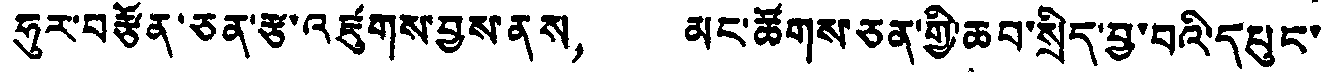ཧུར་བརྩོན་ཅན་རྩ་འཛུགས་བྱས་ནས， མང་ཚོགས་ཅན་གྱི་ཆབ་སྲིད་བྱ་བའི་དཔུང་
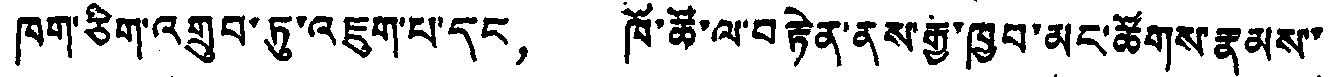ཁག་ཅིག་འགྲུབ་ཏུ་འཇུག་པ་དང， ཁོ་ཚོ་ལ་བརྟེན་ནས་རྒྱ་ཁྱབ་མང་ཚོགས་རྣམས་་
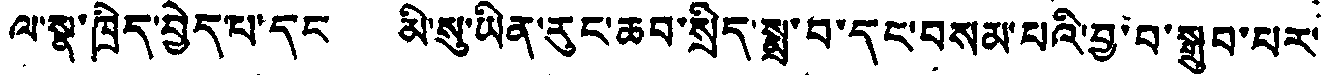ལ་སྣ་ཁྲིད་བྱེད་པ་དང མི་སུ་ཡིན་རུང་ཆབ་སྲིད་སྨྲ་བ་དང་བསམ་པའི་བྱ་བ་སྒྲུབ་པར་
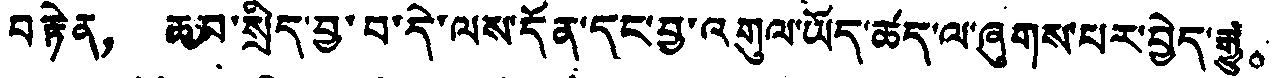བརྟེན， ཆམ་སྲིད་བྱ་བ་དེ་ལས་དོན་དང་བྱ་འགུལ་ཡོད་ཚད་ལ་ཞུགས་པར་བྱེད་རྒྱུ。
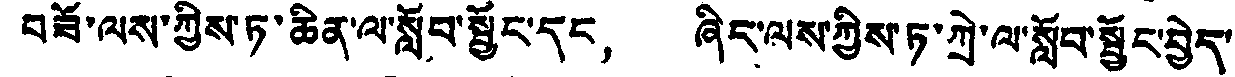བཟོ་ལས་ཀྱིས་ཏ་ཆིན་ལ་སློབ་སྦྱོང་དང， ཞིང་ལས་ཀྱིས་ཏ་ཀྲེ་ལ་སློབ་སྦྱོང་བྱེད་
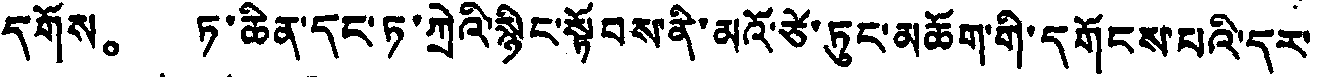དགོས。 ཏ་ཆིན་དང་ཏ་ཀྲེའི་སྙིང་སྟོབས་ནི་མའོ་ཙེ་ཏུང་མཆོག་གི་དགོངས་པའི་དར་
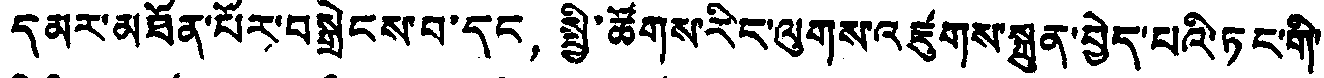དམར་མཐོན་པོར་བསྒྲེངས་བ་དང，སྤྱི་ཚོགས་རིང་ལུགས་འཛུགས་སྐྲུན་བྱེད་པའི་ཏང་གི་
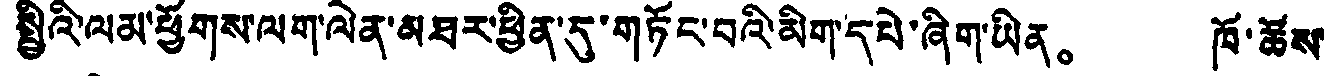སྤྱིའི་ལམ་ཕྱོགས་ལག་ལེན་མཐར་ཕྱིན་དུ་གཏོང་བའི་མིག་དཔེ་ཞིག་ཡིན。 ཁོ་ཚོས་
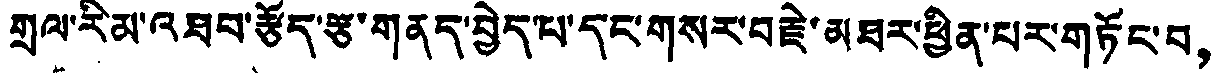གྲལ་རིམ་འཐབ་རྩོད་རྩ་གནད་བྱེད་པ་དང་གསར་བརྗེ་མཐར་ཕྱིན་པར་གཏོང་བ，
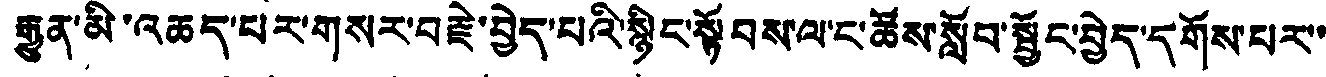རྒྱུན་མི་འཆད་པར་གསར་བརྗེ་བྱེད་པའི་སྙིང་སྟོབས་ལ་ང་ཚོས་སློབ་སྦྱོང་བྱེད་དགོས་པར་་
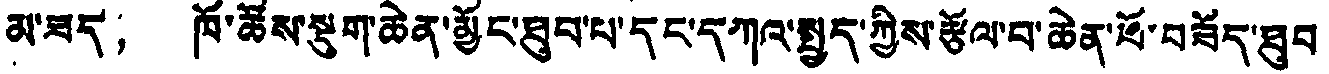མ་ཟད， ཁོ་ཚོས་སྡུག་ཆེན་མྱོང་ཐུབ་པ་དང་དཀའ་སྤྱད་ཀྱིས་རྩོལ་བ་ཆེན་པོ་བཟོད་ཐུབ
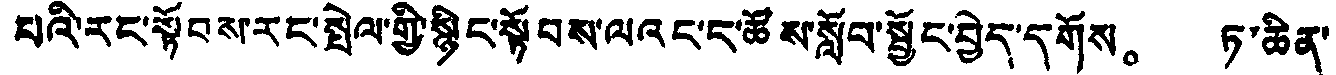པའི་རང་སྟོབས་རང་སྤེལ་གྱི་སྙིང་སྟོབས་ལའང་ང་ཚོས་སློབ་སྦྱོང་བྱེད་དགོས。 ཏ་ཆིན་
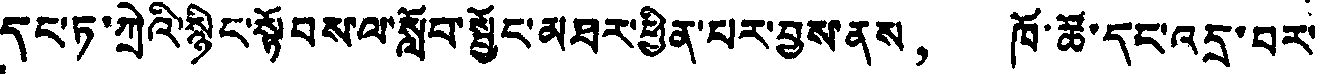དང་ཏ་ཀྲེའི་སྙིང་སྟོབས་ལ་སློབ་སྦྱོང་མཐར་ཕྱིན་པར་བྱས་ནས， ཁོ་ཚོ་དང་འདྲ་བར་
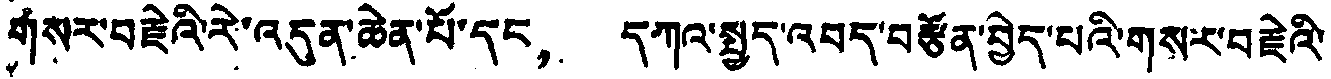གསར་བརྗེའི་རེ་འདུན་ཆེན་པོ་དང， དཀའ་སྤྱད་འབད་བརྩོན་བྱེད་པའི་གསར་བརྗེའི་
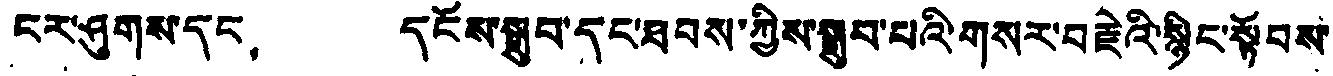ངར་ཤུགས་དང， དངོས་སྒྲུབ་དང་ཐབས་ཀྱིས་སྒྲུབ་པའི་གསར་བརྗེའི་སྙིང་སྟོབས་
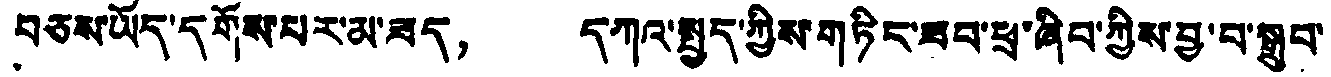བཅས་ཡོད་དགོས་པར་མ་ཟད， དཀའ་སྤྱད་ཀྱིས་གཏིང་ཟབ་ཕྲ་ཞིབ་ཀྱིས་བྱ་བ་སྒྲུབ་
